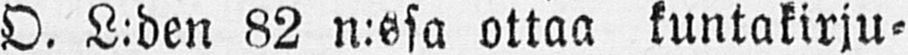O. L:den 82 n:ssa ottaa kuntakirju-
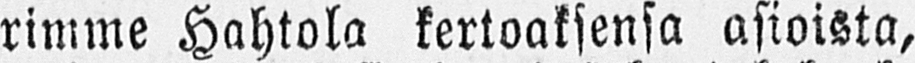rimme Hahtola kertoaksensa asioista,
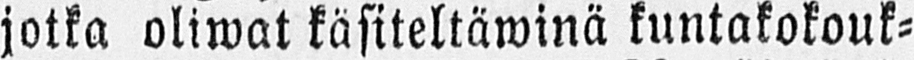jotka oliwat käsiteltäwinä kuntakokouk-
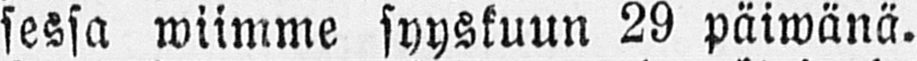sessa wiimme syyskuun 29 päiwänä.
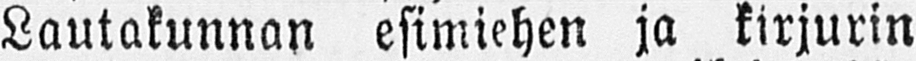Lautakunnan esimiehen ja kirjurin
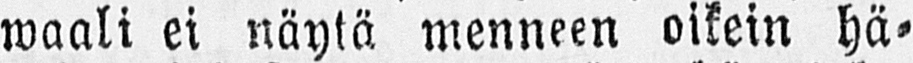waali ei näytä menneen oikein hä-
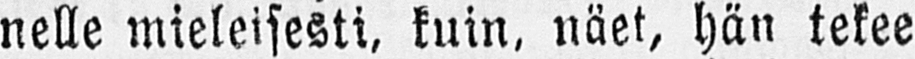nelle mieleisesti, kuin, näet, hän tekee
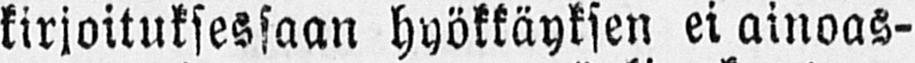kirjoituksessaan hyökkäyksen ei ainoas-
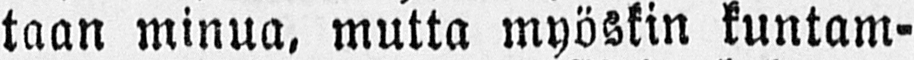taan minua, mutta myöskin kuntam-
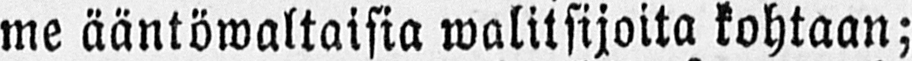me ääntöwaltaisia walitsijoita kohtaan;
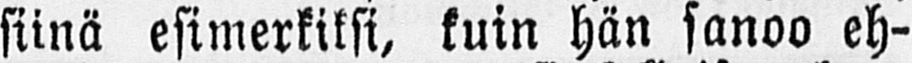siinä esimerkiksi, kuin hän sanoo eh-
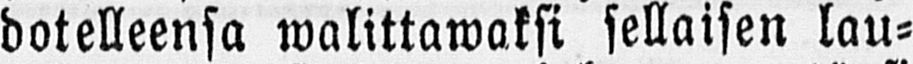dotelleensa walittawaksi sellaisen lau-
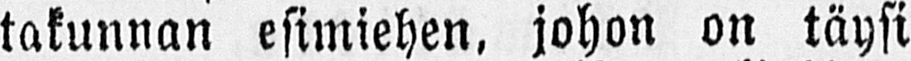takunnan esimiehen, johon on täysi
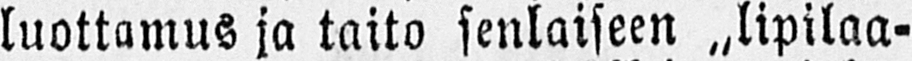luottamus ja taito senlaiseen „lipilaa-
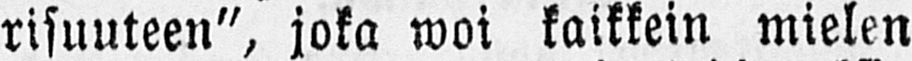risuuteen", joka woi kaikkein mielen
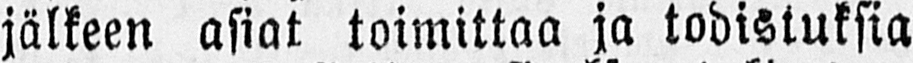jälkeen asiat toimittaa ja todistuksia
